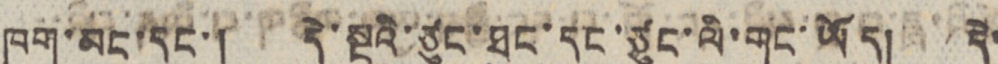ཁག་མང་དང་། དེ་སྔའི་ཙུང་ཐུང་དང་ཙུང་ལི་གང་ཡོད། དེ་
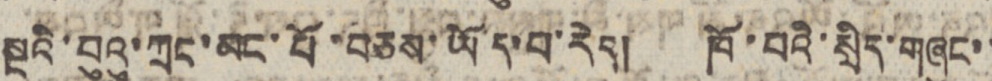སྔའི་པུའུ་ཀྲང་མང་པོ་བཅས་ཡོད་པ་རེད། ཁོ་བའི་སྲིད་གཞུང་་
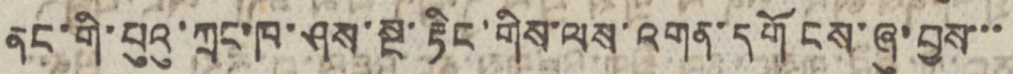ནང་གི་པུའུ་ཀྲང་ཁ་ཤས་སྔ་རྟིང་གིས་ལས་འགན་དགོངས་ཞུ་བྱས་་་
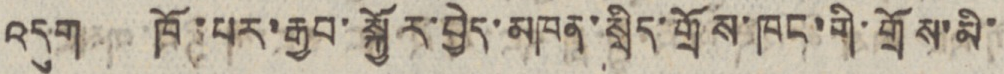འདུག ཁོ་པར་རྒྱབ་སྐྱོར་བྱེད་མཁན་སྲིད་གྲོས་ཁང་གི་གྲོས་མི་
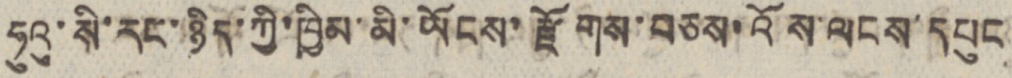ཧུའུ་སི་རང་ཉིད་ཀྱི་ཁྱིམ་མི་ཡོངས་རྫོགས་བཅས་འོས་ལངས་དཔུང
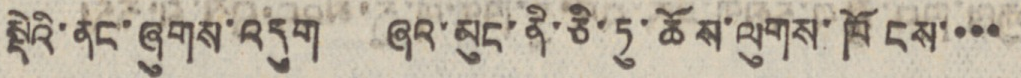སྡེའི་ནང་ཞུགས་འདུག ཞའ་མུང་ནི་ཅི་ཏུ་ཆོས་ལུགས་ཁོངས་་་་
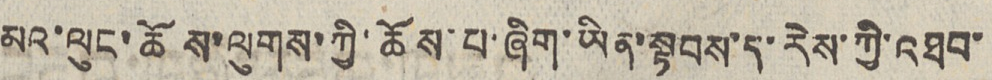མའ་ལུངས་ཆོས་ལུགས་ཀྱི་ཆོས་པ་ཞིག་ཡིན་སྟབས་ད་རེས་ཀྱི་འཐབ་
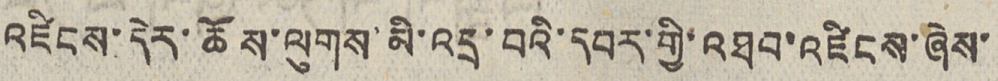འཛིངས་དེར་ཆོས་ལུགས་མི་འདྲ་བའི་དབར་གྱི་འཐབ་འཛིངས་ཞེས་
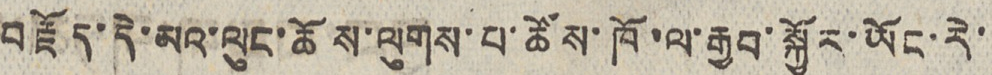བརྗོད་དེ་མའ་ལུང་ཆོས་ལུགས་པ་ཆོས་ཁོ་ལ་རྒྱབ་སྐྱོར་ཡོང་རེ་
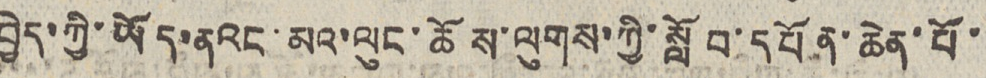བྱེད་ཀྱི་ཡོད་ནའང་མའ་ལུང་ཆོས་ལུགས་ཀྱི་སློབ་དཔིན་ཆེན་པོ་
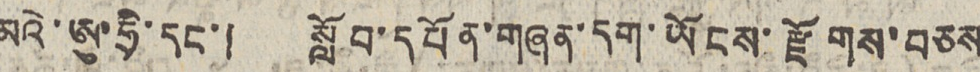མའེ་ཨུ་ཧྲི་དང་། སློབ་དཔོན་གཞན་དག་ཡོངས་རྫོགས་བཅས
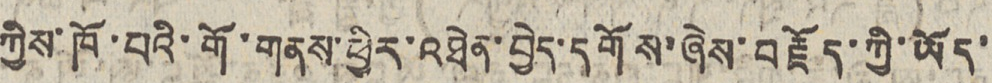ཀྱིས་ཁོ་བའི་གོ་གནས་ཕྱིར་འཐེན་བྱེད་དགོས་ཞེས་བརྗོད་ཀྱི་ཡོད་
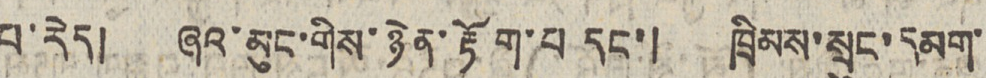པ་རེད། ཞའ་མུང་གིས་ཉེན་རྟོག་པ དང་། ཁྲིམས་སྲུང་དམག་
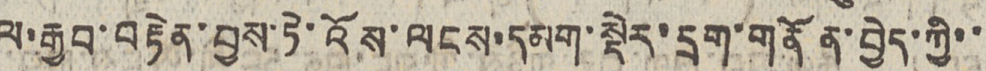ལ་རྒྱབ་བརྟེན་བྱས་ཏེ་འོས་ལངས་དམག་སྡེར་དྲག་གནོན་བྱེད་ཀྱི་་
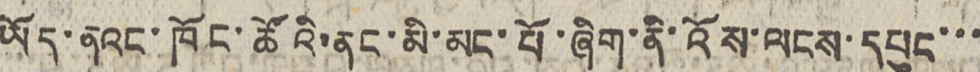ཡོད་ནའང་ཁོང་ཚོའི་ནང་མི་མང་པོ་ཞིག་ནི་འོས་ལངས་དཔུང་་་
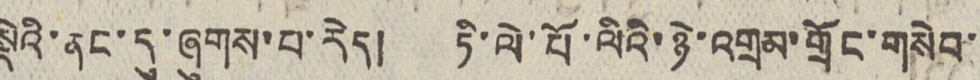སྡེའི་ནང་དུ་ཞུགས་པ་རེད། ཏི་ལེ་པོ་ལིའི་ཉེ་འགྲམ་གྲོང་གསེབ་
